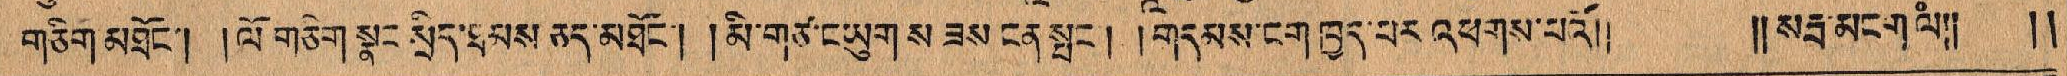གཅིག་མཐོང་། །ལོ་གཅིག སྣང་སྲིད་ཐམས་ཅད་མཐོང་། །མི་གཙ་ང་ཡུག་ས ཟས ངནསྤང། །གདམས་ངག་ཁྱད་པར་འཕགས་པའོ།། །།སརྦ་མངགལཾ།། །།
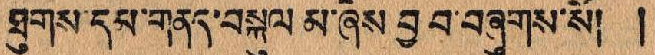ཐུགས་དམ་གནད་བསྐུལ་མ་ཞེས བྱ བ་བཞུགས་སོ། །
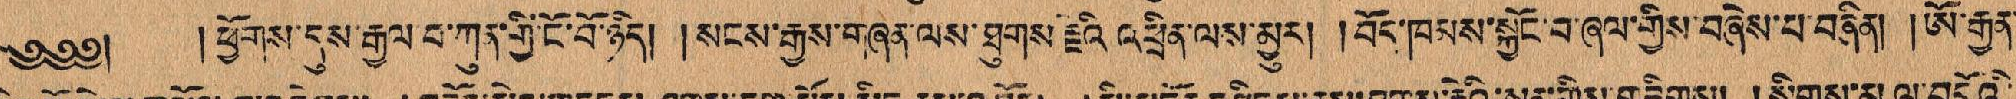༄༅༅། །ཕྱོགས་དུས་རྒྱལ་བ་ཀུན་གྱི་ངོ་བོ་ཉིད། །སངས་རྒྱས་གཞན་ལས་ཐུགས་རྗེའི འཕྲིན་ལས་མྱུར། །བོད་ཁམས་སྐྱོང་བ་ཞལ་གྱིས་བཞེས་པ་བཞིན། །ཨོ་རྒྱན་
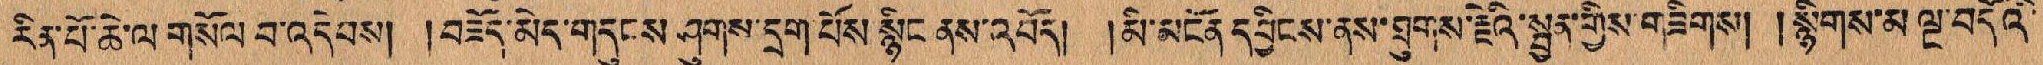རིན་པོ་ཆེ་ལ་གསོལ་བ་འདེབས། བཟོད་མེད་གདུངས ཤུགས་དྲག་པོས སྙིང་ནས་འབོད། །མི་མངོན་དབྱིངས་ནས་ཐུགས་རྗེས་སྦྱན་གྱིས་གཟིགས། །སྙིགས་མ་སྔ་བོདའི་
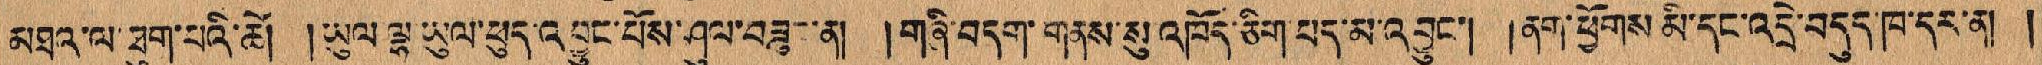མཐའ་ལ་ཐུག་པའི་ཚེ། །ཡུལ་ལྷ་ཡུལ་ཕུད་འབྱུང་པོས་ཤུལ་བཟུང་ན། །གཞི་བདག་གནས་སུ་འཁོད་ཅིག་པད་མ་འབྱུང་། །ནག་ཕྱོགས་མི་དང་འདྲེ་བདུད་ཁ་དར་ན། །
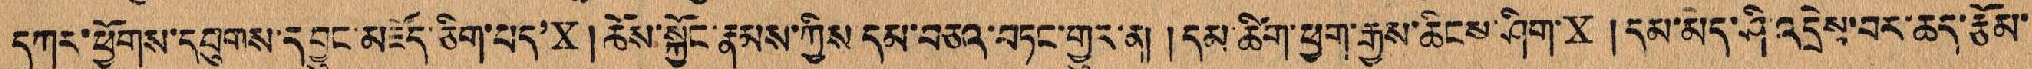དཀར་ཕྱོགས་དབུགས་དབྱུང་མཛོད་ཅིག་པད'x།ཆོས་སྐྱོང་རྣམས་ཀྱིས་དམ་བཅའ་བཏང་གྱུར་ན། །དམ་ཚིག་ཕྱག་རྒྱས་ཆིངས་ཤིག་x།དམ་མེད་ཤི་འདྲེས་བར་ཆད་རྩོམ་
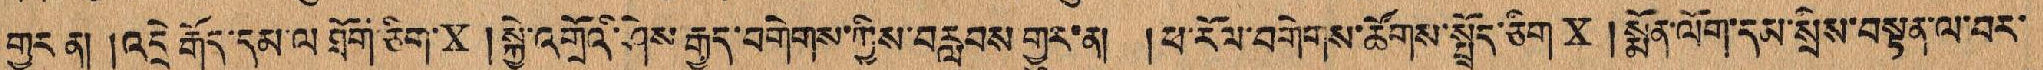གྱུར་ན། །འདྲེ་རྒོད་དམ་ལ་ཐོག་ཅིག་x།སྐྱེ་འགྲོའི་ཤེས་རྒྱུད་བགེགས་ཀྱིས་བརླབས་གྱུར་ན། །ཕ་རོལ་བགེགས་ཚོགས་སྤྲོད་ཅིགx།སྨོན་ལོག་དམ་སྲེས་བསྟན་ལ་བར་
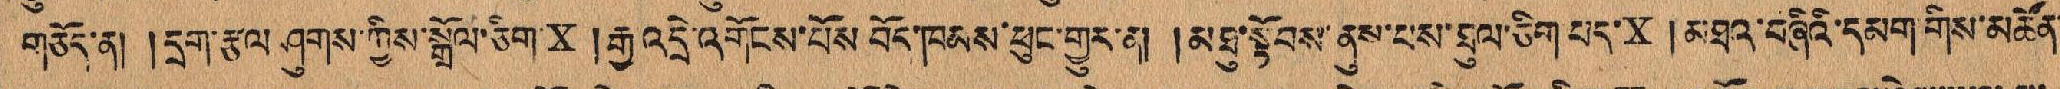གཅོད་ན། །དྲག་རྩལ ཤུགས་ཀྱི་སྒྲོལ་ཅིག་x།རྒྱ་འདྲེ་འགོངས་པོས་བོད་ཁམས་ཕུང་གྱུར་ན། །མཐུ་སྟོབས་ནུས་པས་ཐུལ་ཅིག་པད་x།མཐའ་བཞིའི་དམག་གིས་མཚོན་
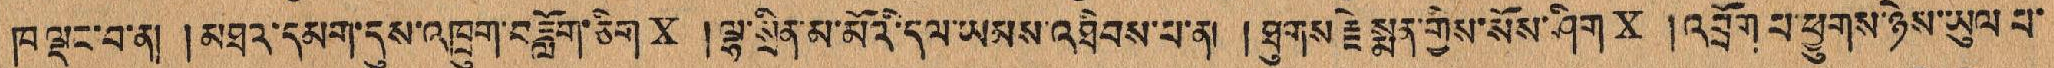ཁ་ལྡང་བ་ན། །མཐའ་དམག་དུས་འཁྲུག་བཟློག་ཅིགx །ལྷ་སྲིན་མ་མོའི་དལ་ཡམས་འཐིབས་པ་ན། །ཐུགས་རྗེ་སྨན་གྱིས་སོས་ཤིག་x།འབྲོག་ཕ་ཕྱུགས་ཉེས་ཡུལ་པ་
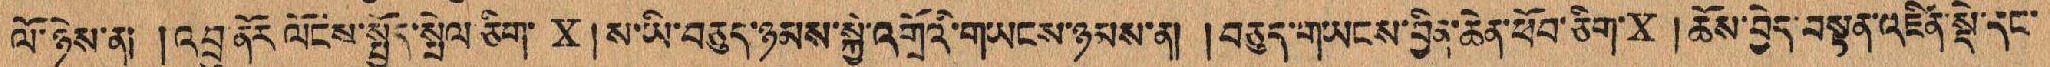ལོ་ཉེས་ན། །འབྲུ་ནོར་ལོངས་སྤྱོད་སྤེལ་ཅིག་x།ས་ཡི་བཅུད་ཉམས་སྐྱེ་འགྲོའི་གཡངས་ཉབས་ན། །བཅུད་གཡངས་བྱིན་ཆེན་ཕོབ་ཅིག་x།ཆོས་བྱེད་བསྟན་འཛིན་སྡེ་དང་
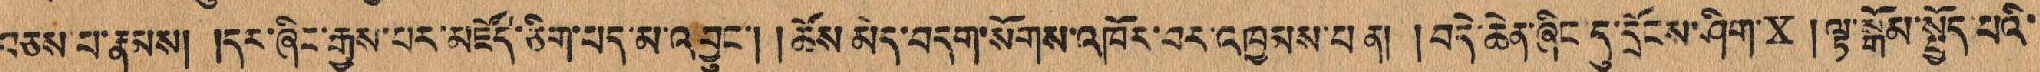བཅས་པ་རྣམས། །དར་ཞིང་རྒྱས་པར་མཛོད་ཅིག་པད་མ་འབྱུང་། །ཆོས་མེད་བདག་སོགས་འཁོར་བར་འཁྱབས་པ་ན། །བདེ་ཆེན་ཞིང་དུ་དྲོངས་ཤིག་x།ལྟ་སྒོམ་སྤྱོད་པའི་
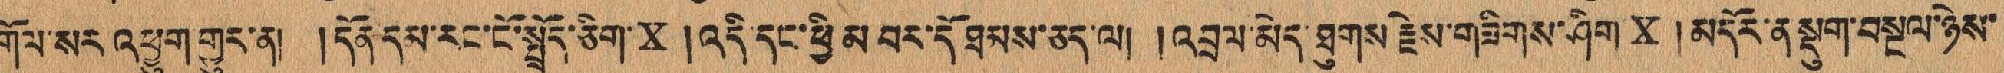གོལ་སར འཕྱུག་གྱུར་ན། །དོན་དམ་རང་ངོ་སྤྲོད་ཅིག་x།འདི་དང་ཕྱི་མ་བར་དོ་ཐམས་ཅད་ལ། །འབྲས་མེད་ཐུགས་རྗེས་གཟིགས་ཤིགx།མདོར་ན་སྡུག་བསྔལ་ཉེས་
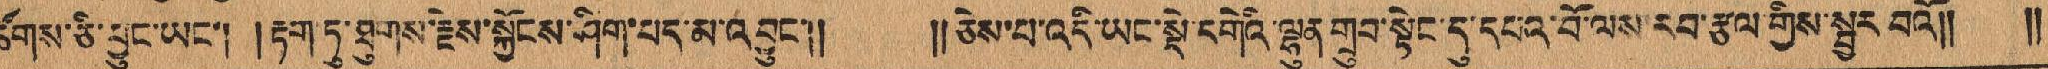ཚོགས་ཅི་བྱུང་ཡང་། །རྟག་ཏུ་ཐུགས་རྗེས་སྐྱོངས་ཤིག་པད་མ་འབྱུང་།། །།ཅེས་པ་འདི་ཡང་སྡེ་དགེའི་ལྷུན་གྲུབ་སྟེང་དུ་དཔའ་བོ་ལས་རབ་རྩལ་གྱིས་སྦྱར་བའོ།། །།
